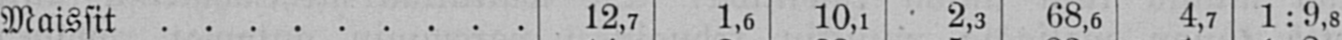Maissit 12,7 1,6 10,1 2,3 68,6 4,7 1:9,8
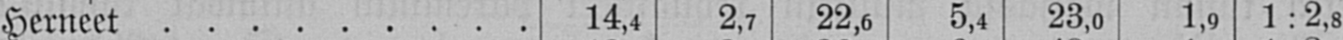Herneet 14,4 2,7 22,6 5,4 23,0 1,9 1:2,8
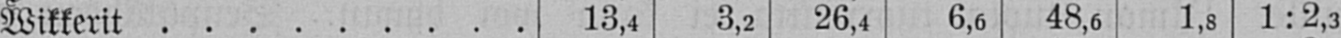Wikkerit 13,4 3,2 26,4 6,6 48,6 1,8 1:2,3
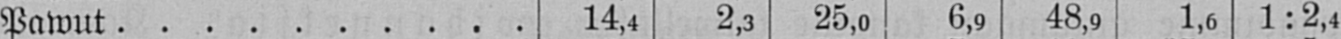Pawut 14,4 2,3 25,0 6,9 48,9 1,6 1:2,4
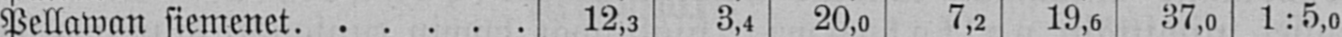Pellawan siemenet 12,3 3,4 20,0 7,2 19,6 37,0 1:5,0
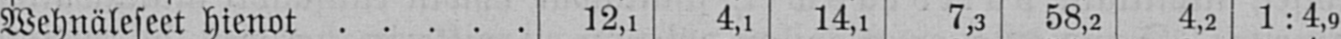Wehnäleseet hienot 12,1 4,1 14,1 7,3 58,2 4,2 1:4,9
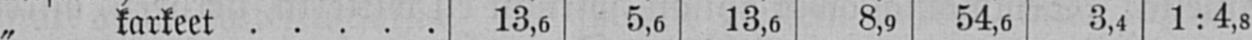„ karkeet 13,6 5,6 13,6 8,9 54,6 3,4 1:4,8
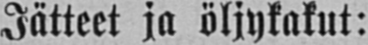Jätteet ja öljykakut:
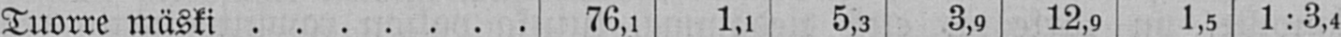Tuorre mäski 76,1 1,1 5,3 3,9 12,9 1,5 1:3,4
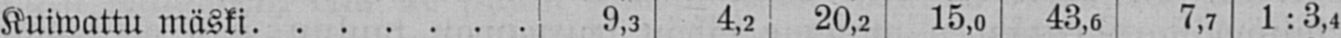Kuiwattu mäski 9,3 4,2 20,2 15,0 43,6 7,7 1:3,4
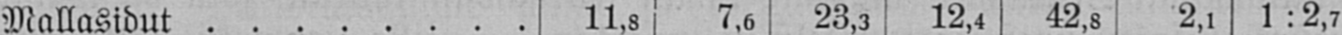Mallasidut 11,8 7,6 23,3 12,4 42,8 2,1 1:2,7
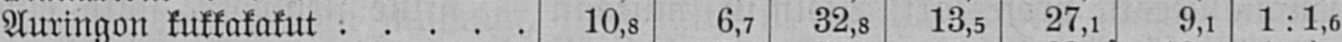Auringon kukkakakut 10,8 6,7 32,8 13,5 27,1 9,1 1:1,6
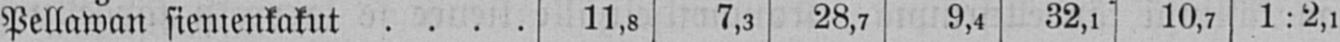Pellawan siemenkakut 11,8 7,3 28,7 9,4 32,1 10,7 1:2,1
